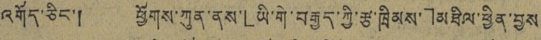འགོད་ཅིང་། ཕྱོགས་ཀུན་ནས་「ཡི་གེ་བརྒྱད་ཀྱི་རྩ་ཁྲིམས་」མཐིལ་ཕྱིན་བྱས
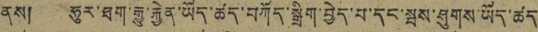ནས། ཧུར་ཐག་རྒྱུ་རྐྱེན་ཡོད་ཚད་བཀོད་སྒྲིག་བྱེད་པ་དང་སྦས་ཤུགས་ཡོད་ཚད
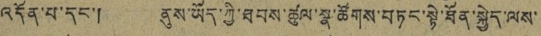འདོན་པ་དང་། ནུས་ཡོད་ཀྱི་ཐབས་ཚུལ་སྣ་ཚོགས་བཏང་སྟེ་ཐོན་སྐྱེད་ལས་
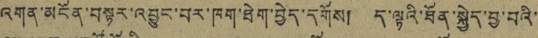འགན་མངོན་བསྟར་འབྱུང་བར་ཁག་ཐེག་བྱེད་དགོས། ད་ལྟའི་ཐོན་སྐྱེད་བྱ་བའི་
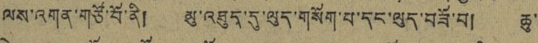ལས་འགན་གཙོ་བོ་ནི། མུ་འཐུད་དུ་ལུད་གསོག་པ་དང་ལུད་བཟོ་བ། ཆུ་
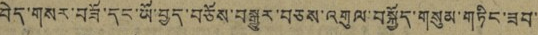བེད་གསར་བཟོ་དང་ཡོ་བྱད་བཅོས་བསྒྱུར་བཅས་འགུལ་བསྐྱོད་གསུམ་གཏིང་ཟབ་
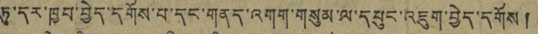ཏུ་དར་ཁྱབ་བྱེད་དགོས་པ་དང་གནད་འགག་གསུམ་ལ་དཔུང་འཇུག་བྱེད་དགོས །
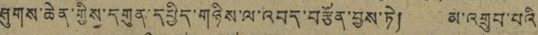ཤུགས་ཆེན་གྱིས་དགུན་དཔྱིད་གཉིས་ལ་འབད་བརྩོན་བྱས་ཏེ། མ་འགྲུབ་པའི་
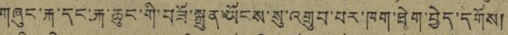གཞུང་རྐ་དང་རྐ་ཆུང་གི་བཟོ་སྐྲུན་ཡོངས་སུ་འགྲུབ་པར་ཁག་ཐེག་བྱེད་དགོས།
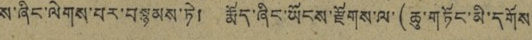ས་ཞིང་ལེགས་པར་བསྙམས་ཏེ། རྨོད་ཞིང་ཡོངས་རྫོགས་ལ་(ཆུ་གཏོང་མི་དགོས་
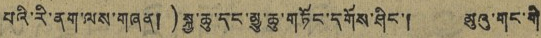པའི་རི་ནག་ལས་གཞན།)སྐྱ་ཆུ་དང་མྱུ་ཆུ་གཏོང་དགོས་ཤིང་། མུའུ་གང་གི
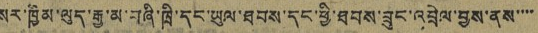སར་ཁྱིམ་ལུད་རྒྱ་མ་བཞི་ཁྲི་དང་ཡུལ་ཐབས་དང་ཕྱི་ཐབས་ཟུང་འབྲེལ་བྱས་ནས་་་་
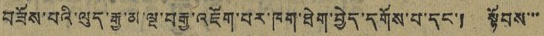བཟོས་པའི་ལུད་རྒྱ་མ་ལྔ་བརྒྱ་འཇོག་པར་ཁག་ཐེག་བྱེད་དགོས་པ་དང་། སྟོབས་་་
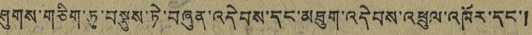ཤུགས་གཅིག་ཏུ་བསྡུས་ཏེ་བཞུན་འདེབས་དང་མཐུག་འདེབས་འཕྲུལ་འཁོར་དང་།
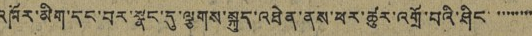འཁོར་མིག་དང་བར་སྣང་དུ་ལྕགས་སྐུད་འཐེན་ནས་ཕར་ཚུར་འགྲོ་བའི་ཤིང་་་་་་་་་
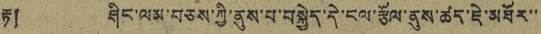རྟ། ཤིང་ལམ་བཅས་ཀྱི་ནུས་པ་བསྐྱེད་དེ་ངལ་རྩོལ་ནུས་ཚད་ཇེ་མཐོར་་
